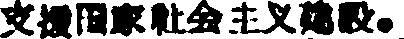支援国家社会主义建設。
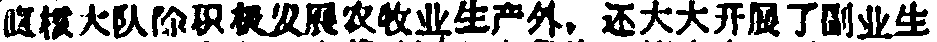直核大队除积极发展农牧业生产外，还大大开展了副业生
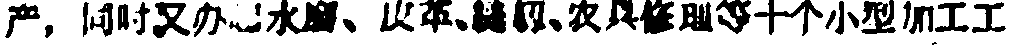产，同时又办 水磨、皮革、  、农具修理等十个小型加工工
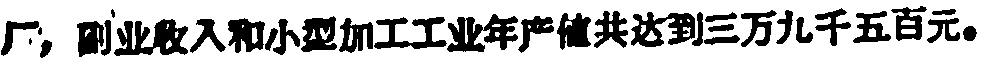厂，副业收入和小型加工工业年产值共达到三万九千五百元。
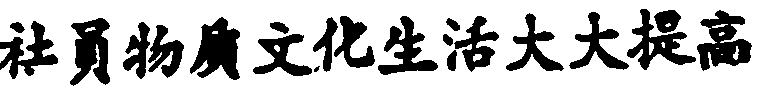社員物貭文化生活大大提高
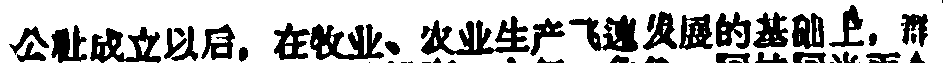公社成立以后。在牧业、农业生产飞发展的基础上，群
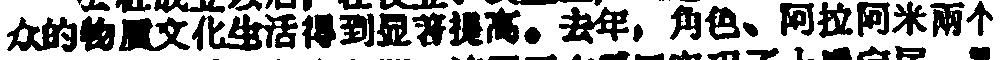众的物貭文化生活得到显著提高。去年，角色、阿拉阿米兩个
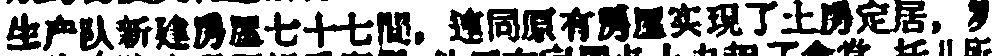生产队新建房屋七十七間，連同原有房屋实現了土房定居，罗
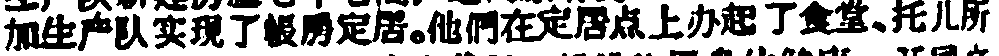加生产队实現了帳房定居。他們在定居点上办起了食堂、托儿所
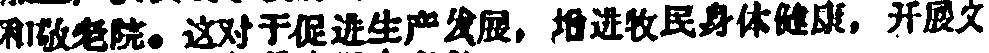和敬老院。这对于促进生产发展，增进牧民身体健康，开展文
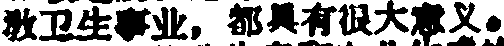教卫生事业。都具有很大意义。
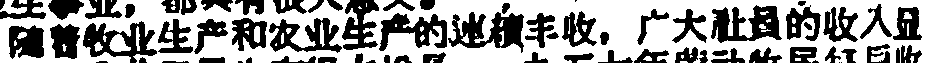随着牧业生产和农业生产的連續丰收，广大社員的收入显
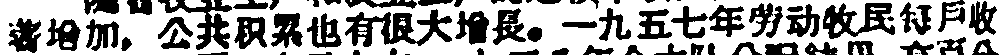著增加，公共积累也有很大增長。一九五七年劳动牧民每戶收
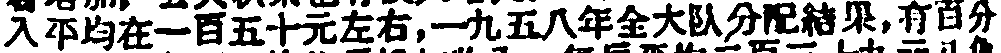入平均在一百五十元左右，一九五八年全大队分配結果，有百分
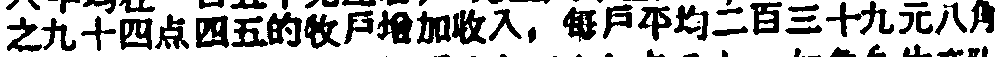之九十四点四五的牧戶增加收入，每戶平均二百三十九元八角
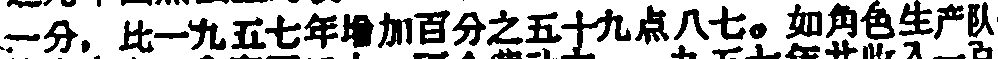一分，比一九五七年增加百分之五十九点八七。如角色生产队
